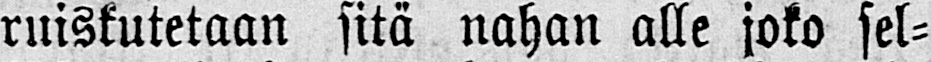ruiskutetaan sitä nahan alle joko sel-
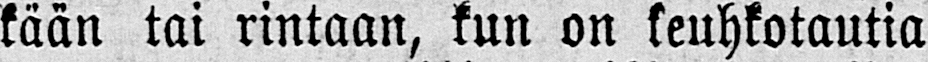kään tai rintaan, kun on keuhkotautia
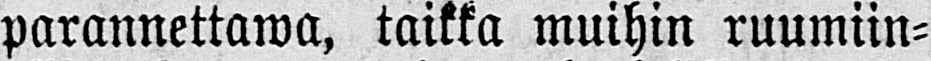parannettawa, taikka muihin ruumiin-
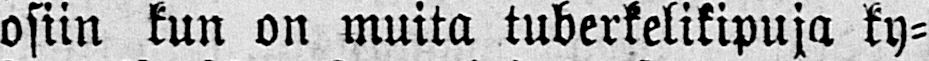osiin kun on muita tuberkelikipuja ky-
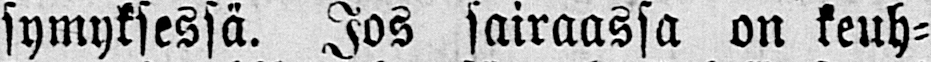symyksessä. Jos sairaassa on keuh-
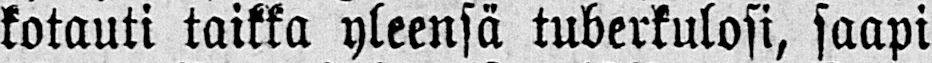kotauti taikka yleensä tuberkulosi, saapi
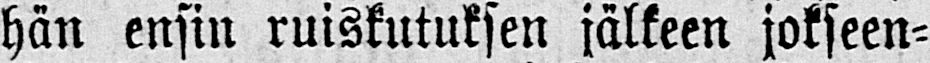hän ensin ruiskutuksen jälkeen jokseen-
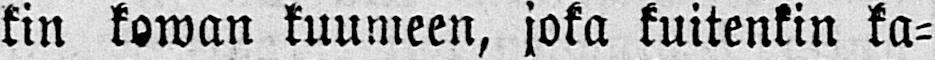kin kowan kuumeen, joka kuitenkin ka-
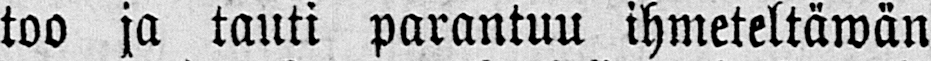tos ja tauti parantuu ihmeteltäwän
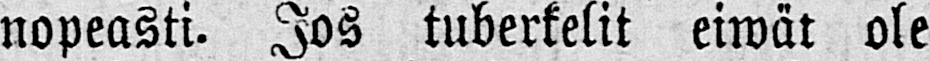nopeasti. Jos tuberkelit eiwät ole
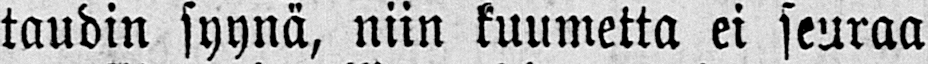taudin syynä, niin kuumetta ei seuraa
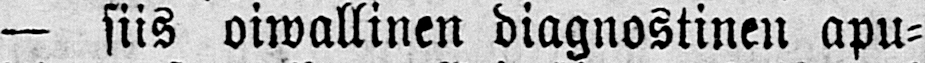— siis oiwallinen diagnostinen apu-
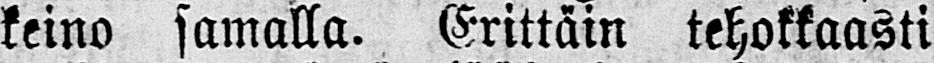keino samalla. Erittäin tehokkaasti
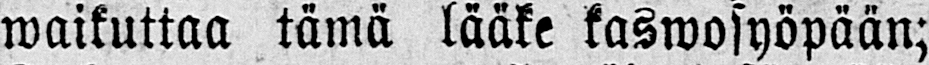waikuttaa tämä lääke kaswosyöpään;
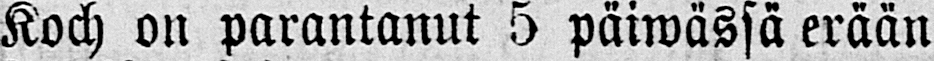Koch on parantanut 5 päiwässä erään
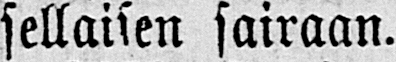sellaisen sairaan.
